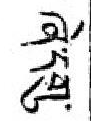ཞེ་དགུ་
